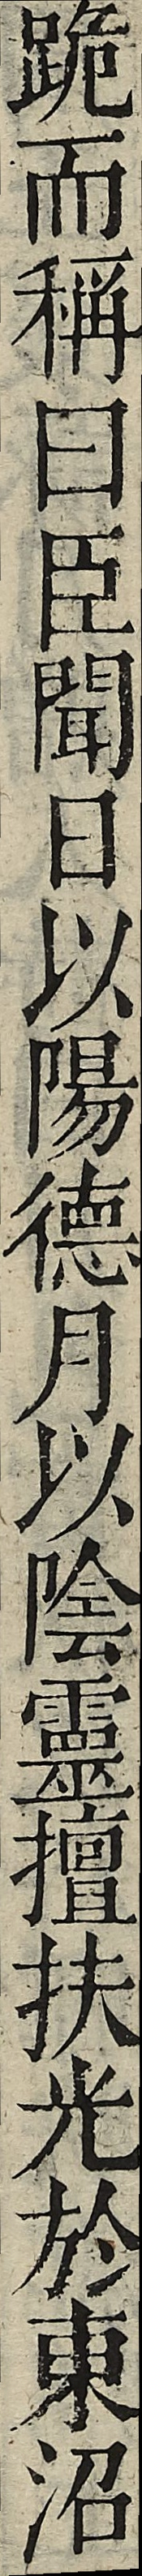跪而稱曰臣聞日以陽德月以陰靈擅扶光於東沼
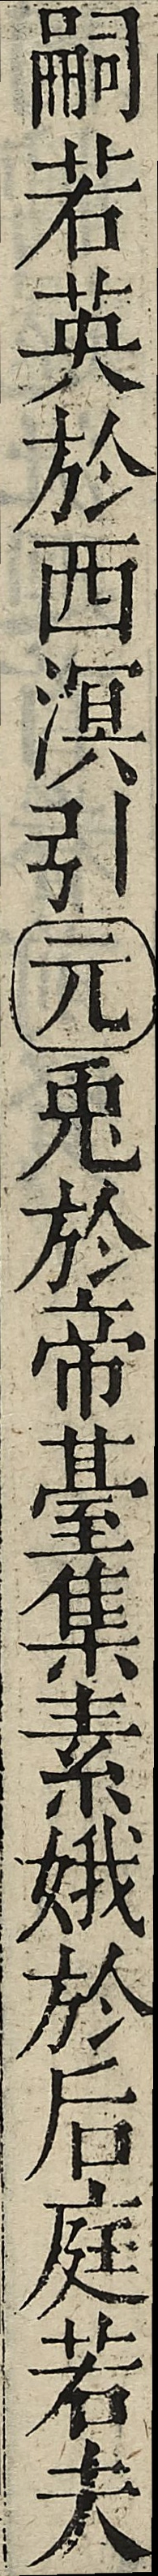嗣若英於西溟引元兔於帝臺集素娥於后庭若夫
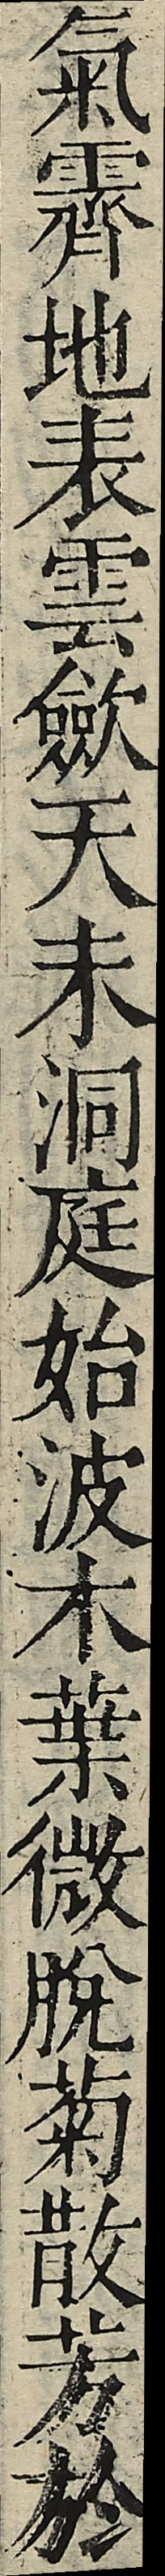氣霽地表雲歛天末洞庭始波木葉微脫菊散芳於
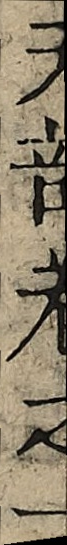天部卷文一
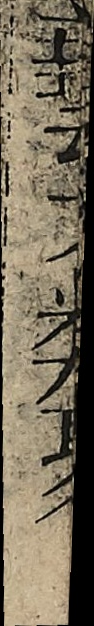藝文類聚
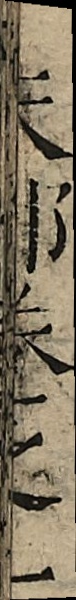天部卷文一
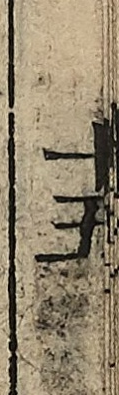十五
